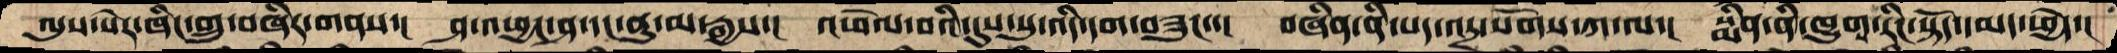ལུས་སེར་ཞིང་གྲུ་བཞིར་གནས་།  ཤ་འཕྱང་ཤ་དང་ནུ་མ་རྒྱས་།  འཕེལ་བའི་དུས་སུ་འདི་དག་བཟུང་་།  བཞིན་ནི་པད་འདྲ་སོགས་ཀ་ལ་།  སྨིན་ནི་ཁྱུག་རིང་སྟོད་དམད་ཕྱེད་།
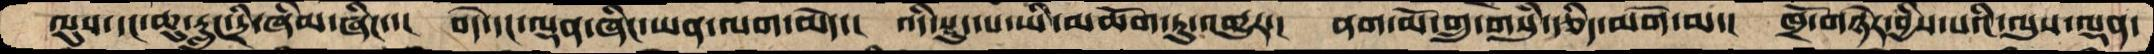ལུས་དང་ཆུ་རླུང་དྲི་ཞིམ་ཞིང་་།  བདེ་དང་ལྡན་ཞིང་ཡན་ལག་མེད་།  འདི་སྡུད་པ་ཡི་མཆོག་ཏུ་འགྱུར་།  ནག་མོ་གྲུ་གསུཾ་རྩིད་མགོ་མ་།  ཁྲོ་གཉེར་བྱིས་པའི་ལུས་ལྡན་
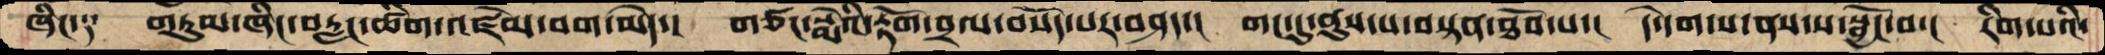ཞིང་༑  གཏུམ་ཞིང་བརླང་ཚིག་འཛེམ་བག་མེད་།  གཙང་སྨེའི་རྟོག་བྲལ་བསོད་པར་བཤད་།  གང་དུ་ནུས་པ་བསྟན་ཐོབ་པ་།  དེ་དག་ས་ནས་ས་སྦྱོང་བ་།  རིག་པའི་
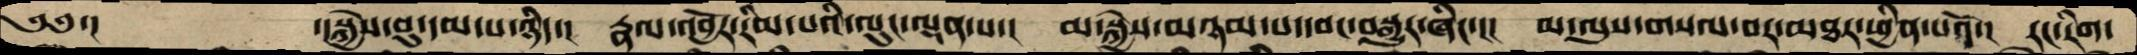༄༅་།         ་།སྐྱེས་བུ་དམ་པ་ཉིད་།  རྣལ་འབྱོར་རིམ་པའི་ལུང་ལྡན་པ་།  མ་སྐྱེས་མཉམ་པ་དབང་བསྒྱུར་ཞིང་།།།  མ་ལུས་གསལ་བར་མཐར་ཕྱིན་པའོ་།  རང་རིག་
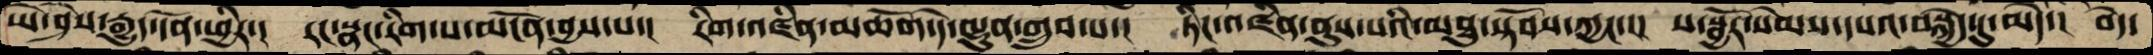ཡེ་ཤེས་རྒྱུད་དོན་ཕྱིར་།  རང་སྣང་རིག་པ་མངོན་བྱས་པ་།  རིག་འཛིན་མཆོག་དེ་ལྷུན་གྲུབ་པ་།  ཏིང་འཛིན་ནུས་པའི་མཐུ་སྟོབས་ཀྱང་།།།  ས་སྦྱོར་སེམས་དཔའ་བསྐྱེད་དུ་མེད་།  བདེ་
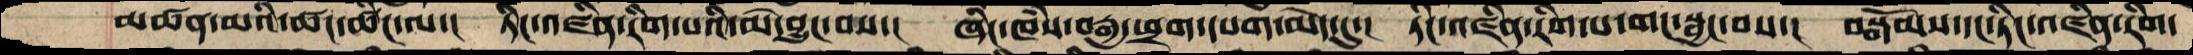མཚན་མའི་ཚང་ཚིང་ལ་།  ཏིང་འཛིན་རིག་པའི་མེ་བྱུང་བས་།  ཞིང་ཁཾས་བརྒྱ་ཕྲག་དཔག་མེད་དུ་།  ཏིང་འཛིན་རིག་པ་གང་སྦྱང་བས་།  བསྒོམས་དང་ཏིང་འཛིན་རིག་
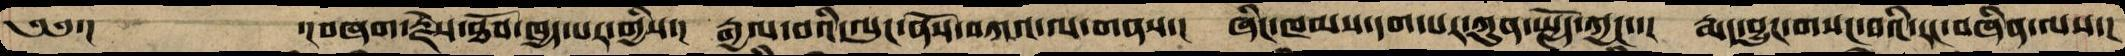༄༅་།         ་།བཞག་རྗེས་ཐོབ་ཁྱད་པར་གྱིས་།  རྒྱལ་བའི་ལུང་ནོས་བཀའ་ལ་གནས་།  ཞིང་ཁམས་དག་པར་ཀུན་སྤྱོད་ཀྱང་་།  རྨད་བྱུང་གསང་བའི་རང་བཞིན་ལས་།
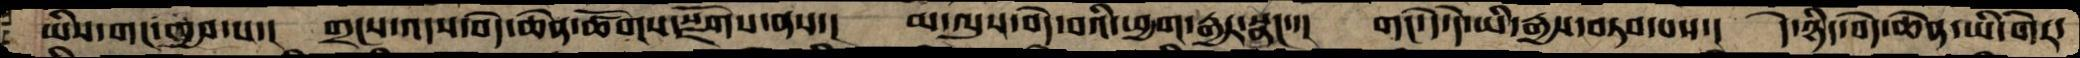ཡིས་གང་ཁྱབ་པ་།  གྲངས་འདས་བདེ་ཆེན་ཚོགས་སྫོགས་ནས་།  མ་ལུས་བདེ་བའི་ཕྱག་རྒྱར་སྣང་་།  གང་དེ་དེ་ཡི་རྒྱས་བཏབ་པས་།  དེ་ཉིད་བདེ་ཆེན་ཡི་གེར་
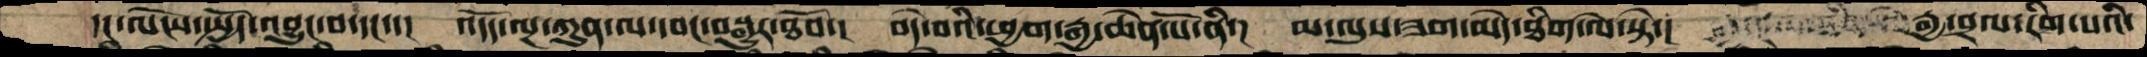དང་ལོངས་སྤྱོད་འབྱུང་བ་དང་་།  འདོད་ལྔ་ཀུན་ལ་དབང་བསྒྱུར་ཐོབ་།  བདེ་བའི་ཕྱག་རྒྱ་ཆེན་པོ་ནི་།  མ་ལུས་ཟག་མེད་ཐིག་ལེ་སྟེ་།       རྒྱ་བྲལ་རིག་པའི་
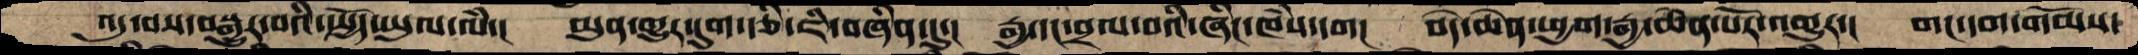འདུ་བས་བསྒྱུར་བའི་སྤྱོད་ཡུལ་ལཾ་།  མུན་གྱུར་དུག་རྩི་ཇི་བཞིན་དུ་།  རྒྱ་དང་བྲལ་བའི་ཞིང་ཁཾས་དག།  བདེ་ཆེན་ཕྱག་རྒྱ་ཆེན་པོར་འགྱུར་།  གང་དག་གོམས་
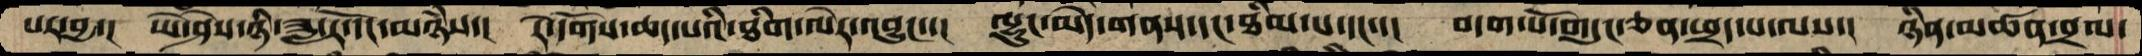པར་བྱ་།  ཡེ་ཤེས་ཉི་ཟླ་རོ་དང་མཉཾས་།  རེ་དོགས་ཆད་པའི་ཐིག་ལེར་འབྱུང་་།  ལྷུང་མེད་གནས་དང་ཐིམ་པ་དང་་།  བདག་པོ་གདུང་ཅན་ཕྲད་པ་ལས་།  ཉིན་མཚན་བྲལ་
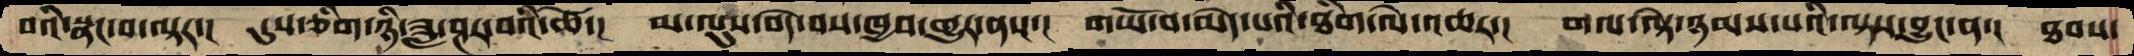བའི་སྣང་བ་ལྟར་།  དུས་ཅིག་ཉི་ཟླ་ཤར་བའི་ཚེ་།  མ་ལུས་བདེ་བས་ཁྱབ་གྱུར་ནས་།  གཡོ་བ་མེད་པའི་ཐིག་ལེ་འཆར་།  གལ་ལྟེ་ཉམས་པའི་ལྟས་བྱུང་ན་།  ཐབས་
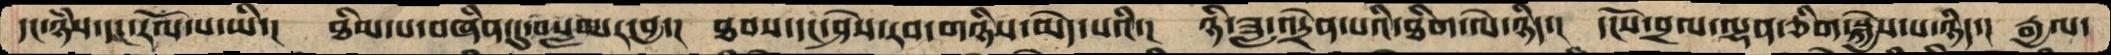དང་ཉཾས་དང་རོལ་པ་ཡི་།  ཐིམ་པ་བཞིན་དུ་བསླབ་པར་བྱ་།  ཐབས་དང་ཤེས་རབ་གཉིས་མེད་པའི་།  ཉི་ཟླ་འདྲེན་པའི་ཐིག་ལེ་ཉིད་།  དངོས་བྲལ་ལྷན་ཅིག་སྐྱེས་པ་ཉིད་།  རྒྱལ་
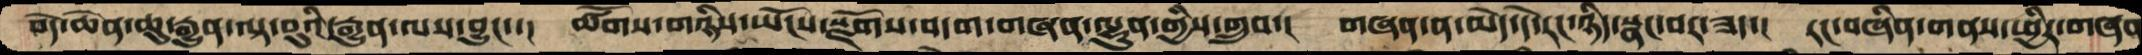བདེ་ཆེན་ཆུ་རྒྱུན་ལྟ་བུའི་རྒྱུན་ལས་བྱུང་་།  ཚོགས་གཉིས་ཡོངས་སྫོགས་བདག་གཞན་ལྷུན་གྱིས་གྲུབ་།  གཞན་ན་མེད་དེ་རང་ཉིད་སྣང་བར་ཟད་།  རང་བཞིན་གནས་ཕྱིར་གཞན
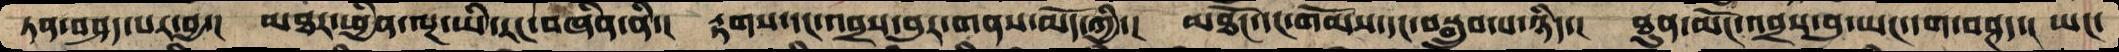ཏན་བཤད་པར་བྱ་།  མཐར་ཕྱིན་ལྔ་ཡི་རང་བཞིན་ནི་།  རྟགས་དང་འབྲས་བུར་གནས་མོད་ཀྱི་།  མཐོང་དང་གོམས་དང་བསྒྲུབ་པ་ཉིད་།  ཐུན་མོང་འབྲས་བུ་ཡང་དག་བཤད་།  ཡང་
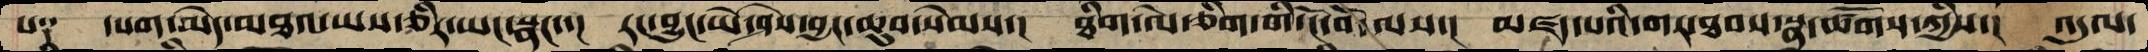པ༑  དཔག་མེད་མཐའ་ཡས་ཅིར་ཡང་སྣང་་།  རང་བྱུང་ཡེ་ཤེས་བྱང་ཆུབ་སེམས་།  ཐིག་ལེ་ཅིག་གི་ངོ་བོ་ལས་།  མཛད་པའི་གར་ཐབས་སྣ་ཚོགས་ཀྱིས་།  འདུལ་
